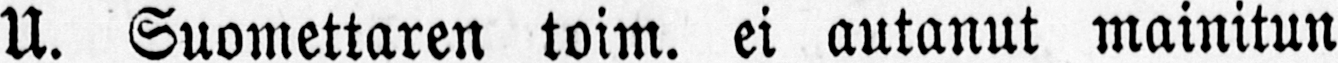U. Suomettaren toim. ei antanut mainitun
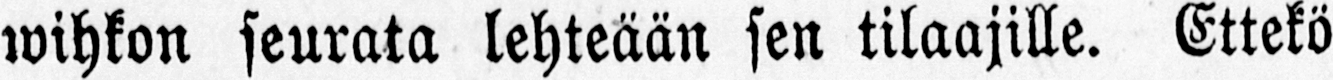wihkon seurata lehteään sen tilaajille. Ettekö
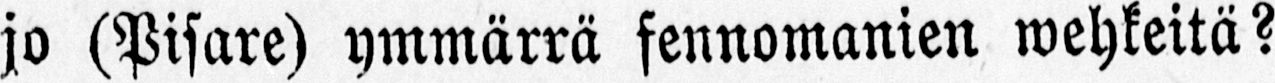jo (Pisare) ymmärrä fennomanien wehkeitä?
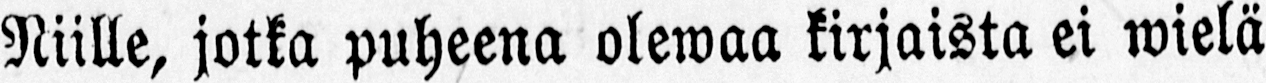Niille, jotka puheena olewaa kirjaista ei wielä
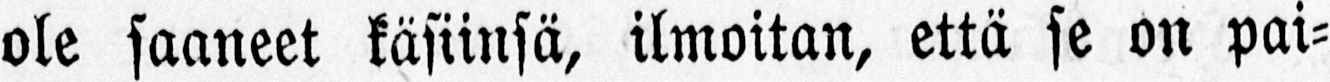ole saaneet käsiinsä, ilmoitan, että se on pai-
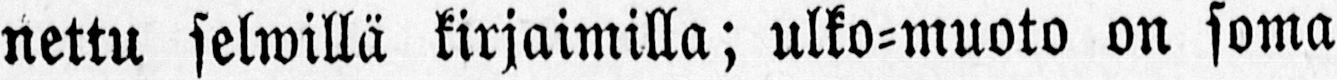nettu selwillä kirjaimilla; ulko-muoto on soma
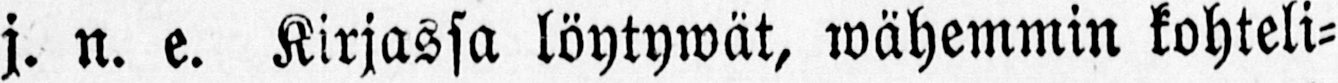j. n. e. Kirjassa löytywät, wähemmin kohteli-
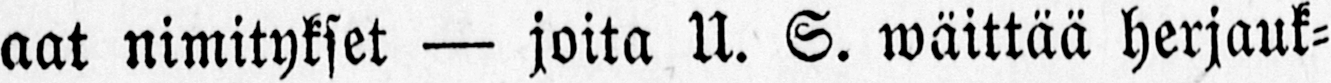aat nimitykset — joita U. S. wäittää herjauk-
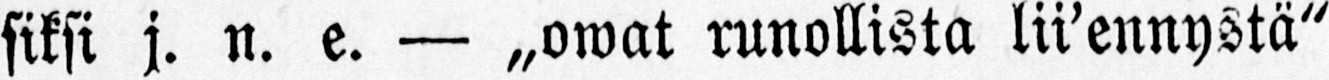siksi j. n. e. — „owat runollista lii’ennystä"
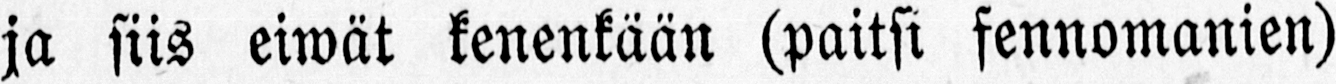ja siis eiwät kenenkään (paitsi fennomanien)
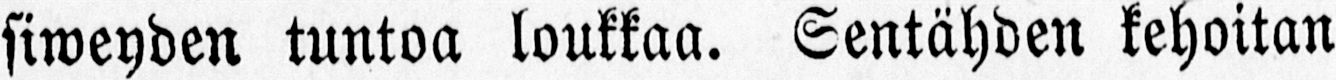siweyden tuntoa loukkaa. Sentähden kehoitan
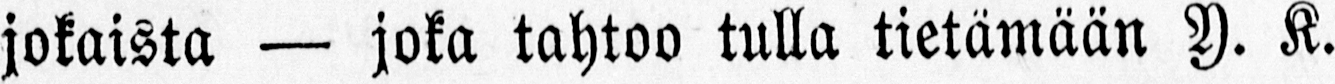jokaista — joka tahtoo tulla tietämään Y. K.
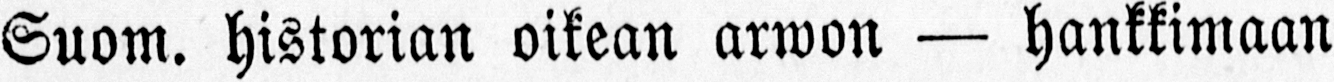Suom. historian oikean arwon — hankkimaan
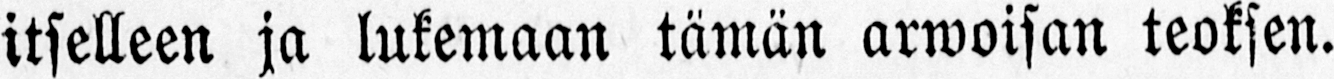itselleen ja lukemaan tämän arwoisan teoksen.
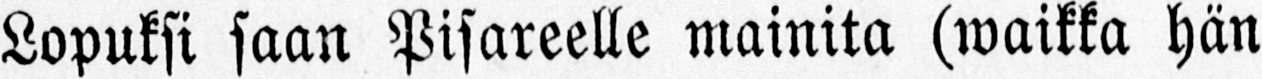Lopuksi saan Pisareelle mainita (waikka hän
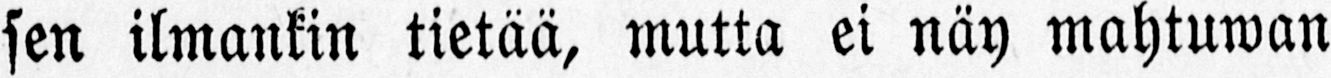sen ilmankin tietää, mutta ei näy mahtuwan
